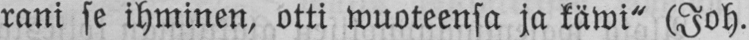rani se ihminen, otti Musteensa ja käwi" (Joh.
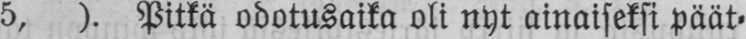5, ). Pitkä odotusaika oli nyt ainaiseksi päät-
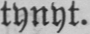tynyt.
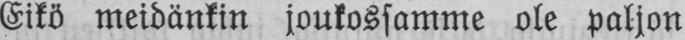Eikö meidänkin joukossamme ole paljon
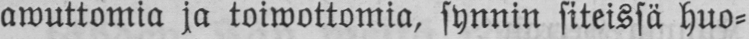awuttomia ja toiwottomia, synnin siteissä huo-
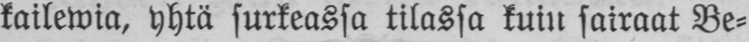kailewia, yhtä surkeassa tilassa kuin sairaat Be-
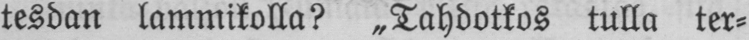tesdan lammikolla? „ Tahdotkos tulla ter-
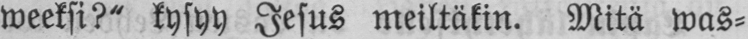weeksi?" kysyy Jesus meiltäkin. Mitä was-
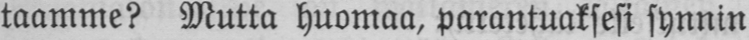taamme? Mutta huomaa, parantuaksesi synnin
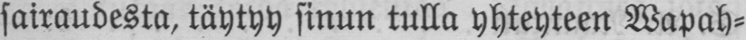sairaudesta, täytyy sinun tulla yhteyteen Wapah-
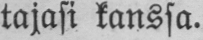tajasi kanssa.
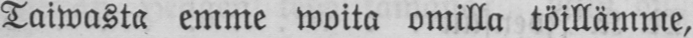Taiwasta emme woita omilla töillämme.
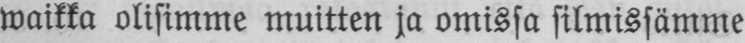waikka olisimme muitten ja omissa silmissämme
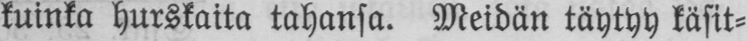kuinka hurskaita tahansa. Meidän täytyy käsit-
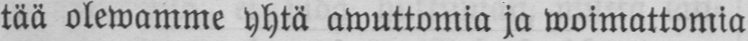tää olewamme yhtä awuttomia ja woimattomia
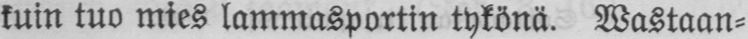kuin tuo mies lammasportin tykönä. Wastaan-
